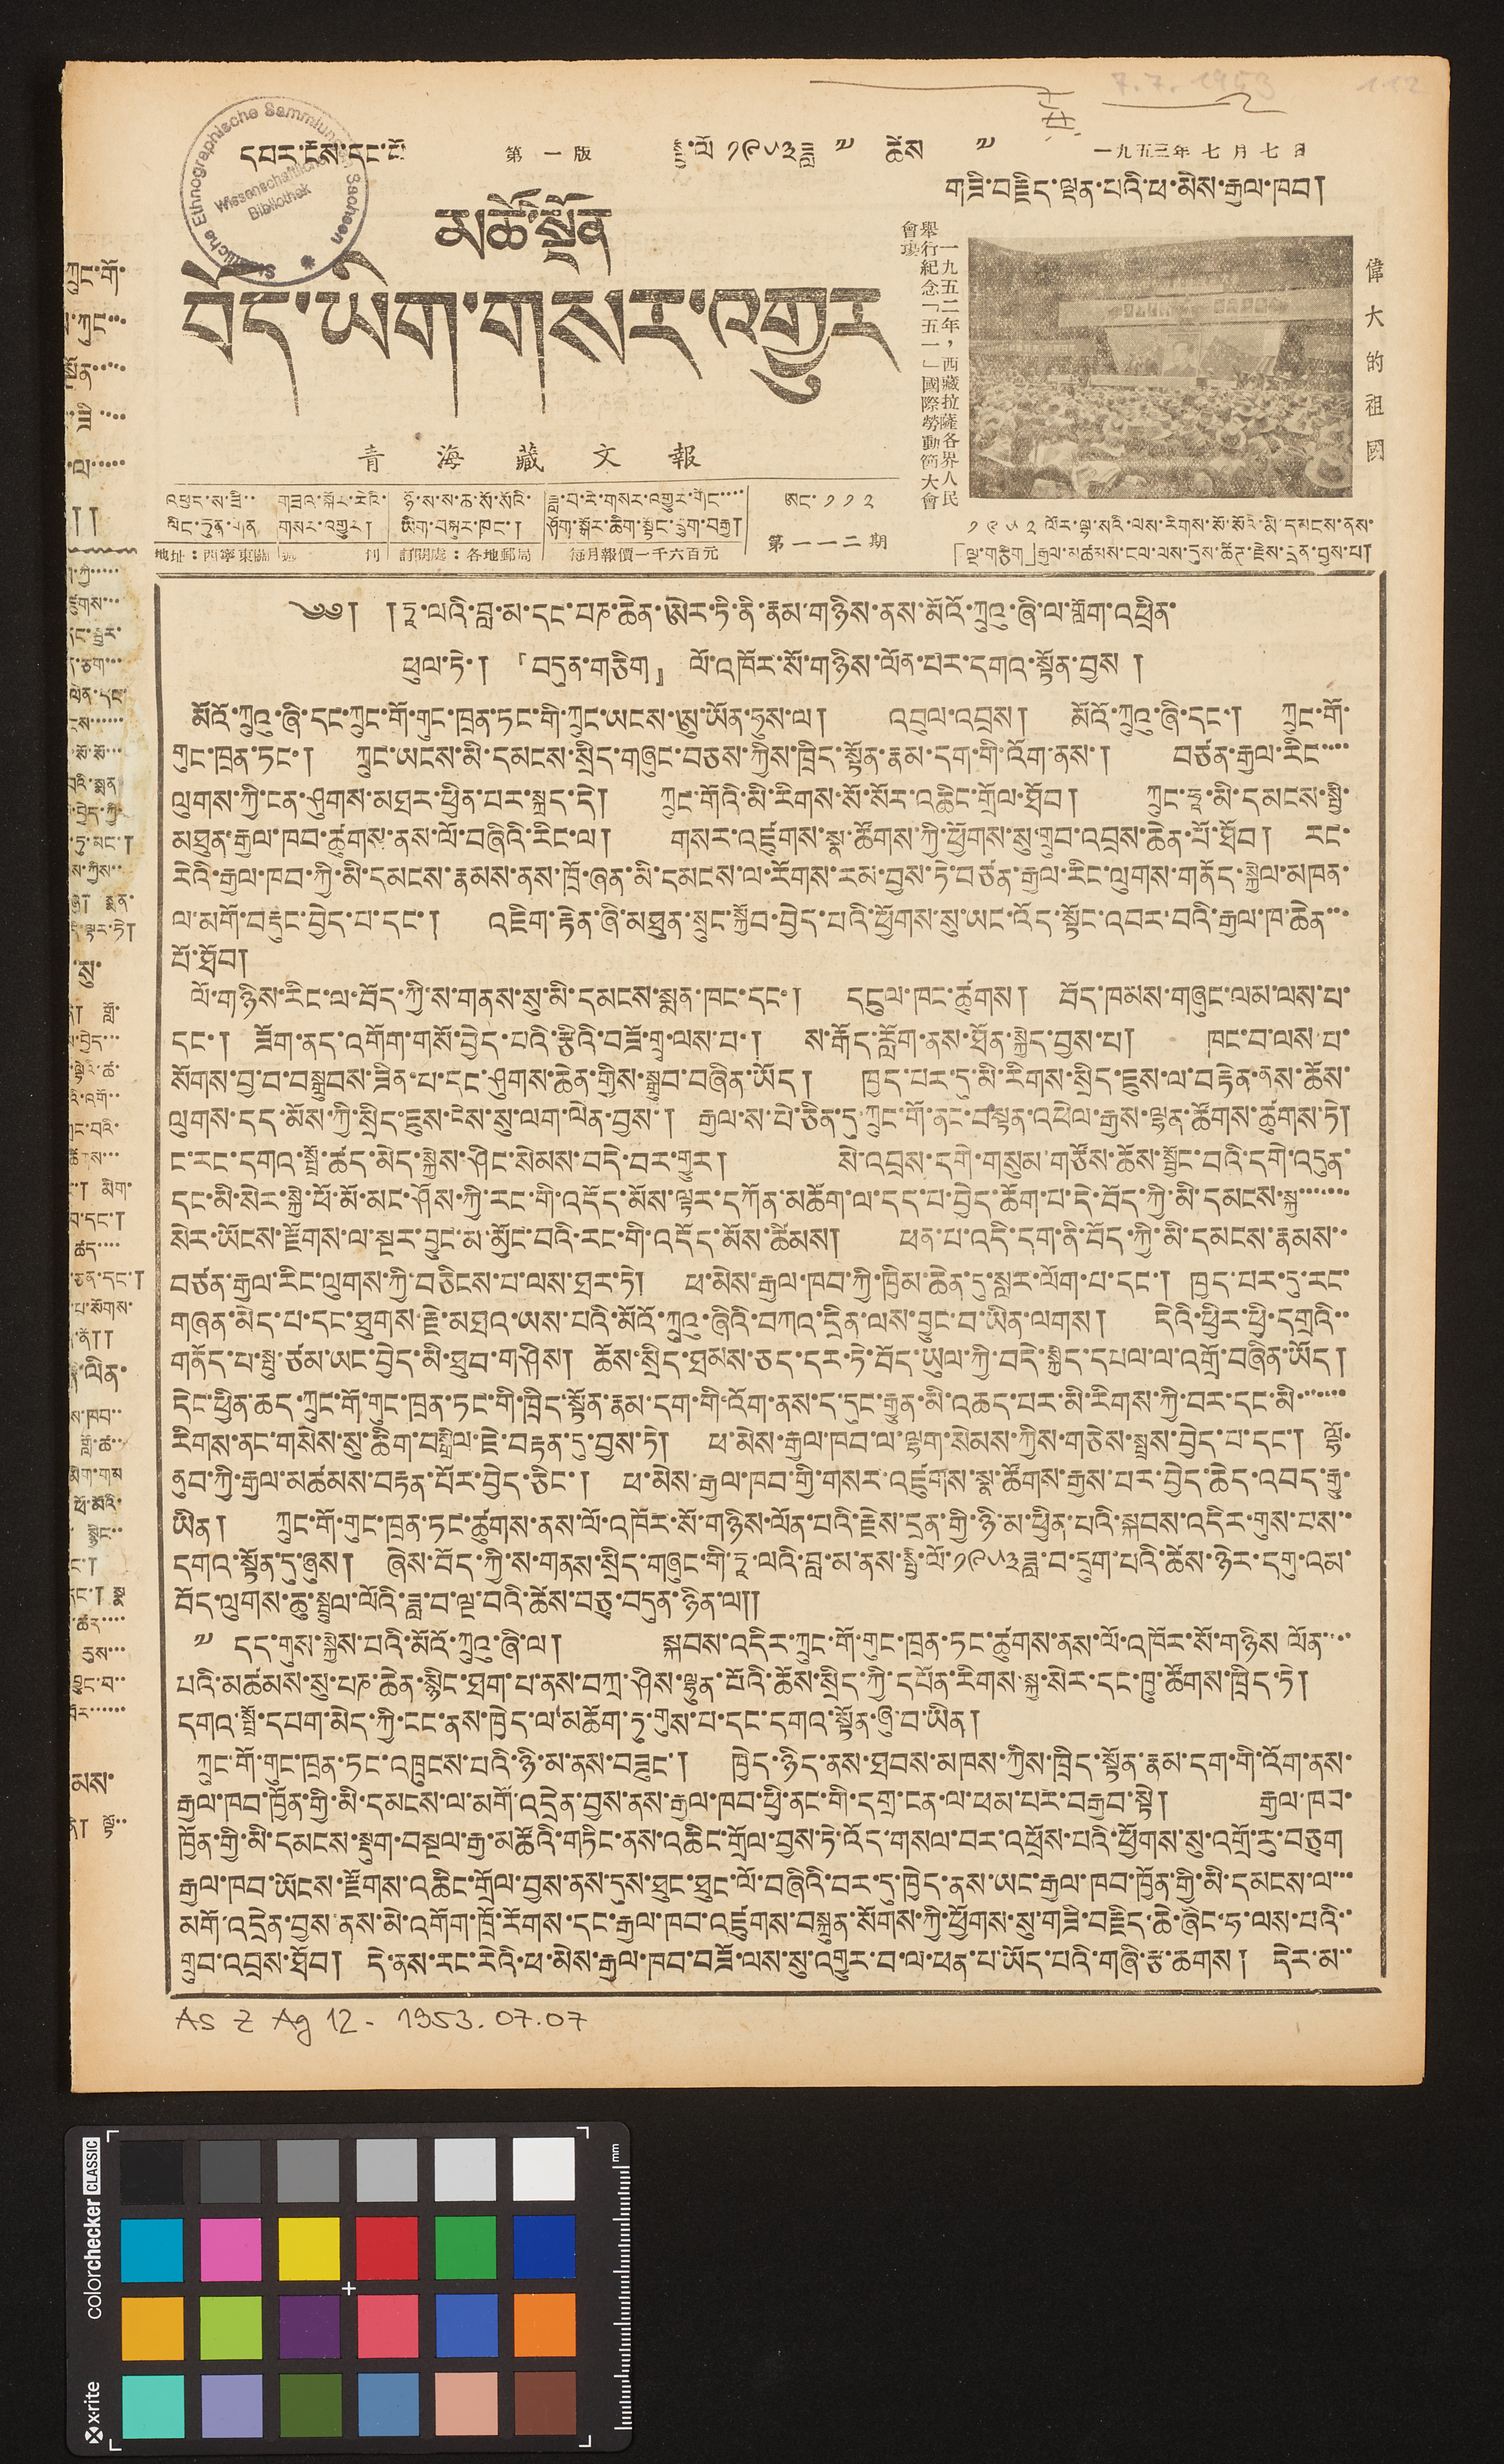དཔར་ངོས་དང་པོ 第 一 版 སྤྱི་ལོ ༡༩༥༣ ཟླ ༧ ཚེས ༧ 一九五三年七月七日
མཚོ་སྔོན
བོད་ཡིག་གསར་འགྱུར
青 海 藏 文 報
གཟི་བརྗིད་ལྡན་པའི་ཕ་མེས་རྒྱལ་ཁབ།
༡ ༩ ༥ ༢ ལོར་ལྷ་སའི་ལས་རིགས་སོ་སོའི་མི་དམངས་ནས་
「ལྔ་གཅིག」རྒྱལ་མཚམས་ངལ་ལས་དུས་ཚིཊ་རྗེས་དྲན་བྱས་པ།
偉 大 的 祖 國
一九五二年，西藏拉薩各界人民
舉行紀念「五一」國際勞動節大會
會塲
ཀྲུང་གོ་
པ་ཀུང་་་
སྔོན་་་་་
་ཟི་་་་
་ལ་་་་་
༎
་ཀྱི་་་་་
ཛུགས་་་
དང་སྦྱར་
ད་ཅག་་་
ལེན་དང་
ངས་་་་་་
་སོ་སོ་་་
བའི་སྨན
བྱེད་ཀྱི་
་ཏུ་མང་།
ས་ཀྱིས་་
ཞུ། སྨན་
དེ་ལྟར་ཏེ།
་སུ་
ནི། གློ་
་བྱེད་་་
་ལྟེའི་ཚ་
འི་འགོ་་
ང་བའི་
ཚིགས་་་
ང་། མིག་
བ་དང་།
ཚད་་་་
་ཅན་དང་།
་པ་སོགས་
་ནོ༎
་ལིན་
ས་ཁབ་་
གློ་ཚ་་
མིག་གམ
ཕོ་མོའི་
་སྙིང་་
ང་།
དང་། སྣ
་ཚད་་་་
རུས་་་
བྱུང་བ་་
བོར་་་་་་
མས་
ནི། ལྟོ་་
༄༅། །ཏཱ་ལའི་བླ་མ་དང་པཎ་ཆེན་ཨེར་ཏི་ནི་རྣམ་གཉིས་ནས་མོའོ་ཀྲུའུ་ཞི་ལ་གློག་འཕྲིན་
ཕུལ་ཏེ་། 『བདུན་གཅིག་』 ལོ་འཁོར་སོ་གཉིས་ལོན་པར་དགའ་སྟོན་བྱས །
མོའོ་ཀྲུའུ་ཞི་དང་ཀྲུང་གོ་གུང་ཁྲན་ཏང་གི་ཀྲུང་ཡངས་ཨུ་ཡོན་ཧུས་ལ། འབུལ་འབྲས། མའོ་ཀྲུའུ་ཞི་དང་། ཀྲུང་གོ་
གུང་ཁྲན་ཏང་། ཀྲུང་ཡངས་མི་དམངས་སྲིད་གཞུང་བཅས་ཀྱིས་ཁྲིད་སྟོན་རྣམ་དག་གི་འོག་ནས་། བཙན་རྒྱལ་རིང་་་་
ལུགས་ཀྱི་ངན་ཤུགས་མཐར་ཕྱིན་པར་སྐྲད་དེ། ཀྲུང་གོའི་མི་རིགས་སོ་སོར་འཆིང་གྲོལ་ཐོབ། ཀྲུང་ཧཱ་མི་དམངས་སྤྱི་
མཐུན་རྒྱལ་ཁབ་ཚུགས་ནས་ལོ་བཞིའི་རིང་ལ། གསར་འཛུགས་སྣ་ཚོགས་ཀྱི་ཕྱོགས་སུ་གྲུབ་འབྲས་ཆེན་པོ་ཐོབ། རང་
རེའི་རྒྱལ་ཁབ་ཀྱི་མི་དམངས་རྣམས་ནས་ཁྲོ་ཞན་མི་དམངས་ལ་རོགས་རམ་བྱས་ཏེ་བཙན་རྒྱལ་རིང་ལུགས་གནོད་སྐྱེལ་མཁན་
ལ་མགོ་བརྡུང་བྱེད་པ་དང་། འཇིག་རྟེན་ཞི་མཐུན་སྲུང་སྐྱོབ་བྱེད་པའི་ཕྱོགས་སུ་ཡང་འོད་སྟོང་འབར་བའི་རྒྱལ་ཁ་ཆེན་་་
པོ་ཐོབ།
ལོ་གཉིས་རིང་ལ་བོད་ཀྱི་ས་གནས་སུ་མི་དམངས་སྨན་ཁང་དང་། དངུལ་ཁང་ཚུགས། བོད་ཁམས་གཞུང་ལམ་ལས་པ་
དང་། ཟོག་ནད་འགོག་གསོ་བྱེད་པའི་རྩིའི་བཟོ་གྲྭ་ལས་པ་། ས་རྒོད་རློག་ནས་ཐོན་སྐྱེད་བྱས་པ། ཁང་བ་ལས་པ་
སོགས་བྱ་བ་བསྒྲུབས་ཟིན་པ་དང་ཤུགས་ཆེན་གྱིས་སྒྲུབ་བཞིན་ཡོད། ཁྱད་པར་དུ་མི་རིགས་སྲིད་ཇུས་ལ་བརྟེན་ནས་ཆོས་
ལུགས་དད་མོས་ཀྱི་སྲིད་ཇུས་ངེས་སུ་ལག་ལེན་བྱས་། རྒྱལ་ས་པེ་ཅིན་དུ་ཀྲུང་གོ་ནང་བསྟན་འཕེལ་རྒྱས་ལྷན་ཚོགས་ཚུགས་ཏེ།
ང་རང་དགའ་སྤྲོ་ཚད་མེད་སྐྱེས་ཤིང་སེམས་བདེ་བར་གྱུར། སེ་འབྲས་དགེ་གསུམ་གཙོས་ཆོས་སྦྱོང་བའི་དགེ་འདུན་
དང་མི་སེར་སྐྱེ་ཕོ་མོ་མང་ཤོས་ཀྱི་རང་གི་འདོད་མོས་ལྟར་དཀོན་མཆོག་ལ་དད་པ་བྱེད་ཆོག་པ་དེ་བོད་ཀྱི་མི་དམངས་སྐྱ་་་་་་་
སེར་ཡོངས་རྫོགས་ལ་སྔར་བྱུང་མ་མྱོང་བའི་རང་གི་འདོད་མོས་ཚིམས། ཕན་པ་འདི་དག་ནི་བོད་ཀྱི་མི་དམངས་རྣམས་་
བཙན་རྒྱལ་རིང་ལུགས་ཀྱི་བཅིངས་པ་ལས་ཐར་ཏེ། ཕ་མེས་རྒྱལ་ཁབ་ཀྱི་ཁྱིམ་ཆེན་དུ་སླར་ལོག་པ་དང་། ཁྱད་པར་དུ་རང་
གཞན་མེད་པ་དང་ཐུགས་རྗེ་མཐའ་ཡས་པའི་མོའོ་ཀྲུའུ་ཞིའི་བཀའ་དྲིན་ལས་བྱུང་བ་ཡིན་ལགས། དེའི་ཕྱི་ཕྱི་དགྲའི་་
གནོད་པ་སྤུ་ཙམ་ཡང་བྱེད་མི་ཐུབ་གཤིས། ཆོས་སྲིད་ཐམས་ཅད་དར་ཏེ་བོད་ཡུལ་ཀྱི་བདེ་སྐྱིད་དཔལ་ལ་འགྲོ་བཞིན་ཡོད།
དེང་ཕྱིན་ཆད་ཀྲུང་གོ་གུང་ཁྲན་ཏང་གི་ཁྲིད་སྟོན་རྣམ་དག་གི་འོག་ནས་ད་དུང་རྒྱུན་མི་འཆད་པར་མི་རིགས་ཀྱི་བར་དང་མི་་་་་་་
རིགས་ནང་གསེས་སུ་ཆིག་བསྒྲིལ་ཇེ་བརྟན་དུ་བྱས་ཏེ། ཕ་མེས་རྒྱལ་ཁབ་ལ་ལྷག་སེམས་ཀྱིས་གཅེས་སྤྲས་བྱེད་པ་དང་། ལྷོ་
ནུབ་ཀྱི་རྒྱལ་མཚམས་བརྟན་པོར་བྱེད་ཅིང་། ཕ་མེས་རྒྱལ་ཁབ་གྱི་གསར་འཛུགས་སྣ་ཚོགས་རྒྱས་པར་བྱེད་ཆེད་འབད་རྒྱུ་
ཡིན། ཀྲུང་གོ་གུང་ཁྲན་ཏང་ཚུགས་ནས་ལོ་འཁོར་སོ་གཉིས་ལོན་པའི་རྗེས་དྲན་གྱི་ཉི་མ་ཕྱིན་པའི་སྐབས་འདིར་གུས་པས་་
དགའ་སྟོན་དུ་ཞུས། ཞེས་བོད་ཀྱི་ས་གནས་སྲིད་གཞུང་གི་ཏཱ་ལའི་བླ་མ་ནས་སྤྱི་ལོ་༡༩༥༣ཟླ་བ་དྲུག་པའི་ཚེས་ཉེར་དགུ་འམ་
བོད་ལུགས་ཆུ་སྦྲུལ་ལོའི་ཟླ་བ་ལྔ་བའི་ཚེས་བཅུ་བདུན་ཉིན་ལ༎
༸ དད་གུས་སྐྱེས་པའི་མོའོ་ཀྲུའུ་ཞི་ལ། སྐབས་འདིར་ཀྲུང་གོ་གུང་ཁྲན་ཏང་ཚུགས་ནས་ལོ་འཁོར་སོ་གཉིས ལོན་་་་
པའི་མཚམས་སུ་པཎ་ཆེན་སྙིང་ཐག་པ་ནས་བཀྲ་ཤིས་ལྷུན་པོའི་ཆོས་སྲིད་ཀྱི་དཔོན་རིགས་སྐྱ་སེར་དང་ཁྱུ་ཚོགས་ཁྲིད་ཏེ།
དགའ་སྤྲོ་དཔག་མེད་ཀྱི་ངང་ནས་ཁྱེད་ལ་མཆོག་ཏུ་གུས་པ་དང་དགའ་སྟོན་ཞུ་བ་ཡིན།
ཀྲུང་གོ་གུང་ཁྲན་ཏང་འཁྲུངས་པའི་ཉི་མ་ནས་བཟུང་། ཁྱེད་ཉིད་ནས་ཐབས་མཁས་ཀྱིས་ཁྲིད་སྟོན་རྣམ་དག་གི་འོག་ནས་
རྒྱལ་ཁབ་ཁྱོན་གྱི་མི་དམངས་ལ་མགོ་འདྲེན་བྱས་ནས་རྒྱལ་ཁབ་ཕྱི་ནང་གི་དགྲ་ངན་ལ་ཕམ་པར་བརྒྱབ་སྟེ། རྒྱལ་ཁབ་
ཁྱོན་གྱི་མི་དམངས་སྡུག་བསྔལ་རྒྱ་མཚོའི་གཏིང་ནས་འཆིང་གྲོལ་བྱས་ཏེ་འོད་གསལ་བར་འཕྲོས་པའི་ཕྱོགས་སུ་འགྲོ་རུ་བཅུག
རྒྱལ་ཁབ་ཡོངས་རྫོགས་འཆིང་གྲོལ་བྱས་ནས་དུས་ཐུང་ཐུང་ལོ་བཞིའི་བར་དུ་ཁྱེད་ནས་ཡང་རྒྱལ་ཁབ་ཁྱོན་གྱི་མི་དམངས་ལ་་་
མགོ་འདྲེན་བྱས་ནས་མེ་འགོག་ཁྲོ་རོགས་དང་རྒྱལ་ཁབ་འཛུགས་བསྐྲུན་སོགས་ཀྱི་ཕྱོགས་སུ་གཟི་བརྗིད་ཆེ་ཞིང་ཧ་ལས་པའི་་
གྲུབ་འབྲས་ཐོབ། དེ་ནས་རང་རེའི་ཕ་མེས་རྒྱལ་ཁབ་བཟོ་ལས་སུ་འགྱུར་བ་ལ་ཕན་པ་ཡོད་པའི་གཞི་རྩ་ཆགས། དེར་མ་་
